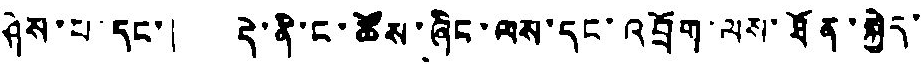ཤེས་པ་དང་། དེ་ནི་ང་ཚོས་ཞིང་ལས་དང་འབྲོག་ལས་ཐོན་སྐྱེད་
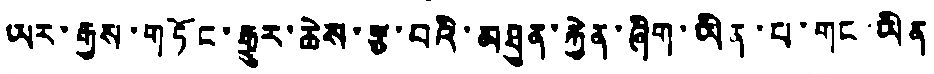ཡར་རྒྱས་གཏོང་རྒྱུར་ཆེས་རྩ་བའི་མཐུན་རྐྱེན་ཞིག་ཡིན་པ་གང་ཡིན
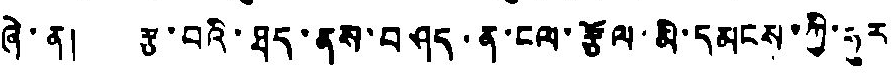ཞེ་ན། རྩ་བའི་ཐད་ནས་བཤད་ན་ངལ་རྩོལ་མི་དམངས་ཀྱི་ཧུར
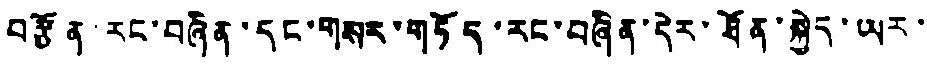བརྩོན་རང་བཞིན་དང་གསར་གཏོད་རང་བཞིན་དེར་ཐོན་སྐྱེད་ཡར་
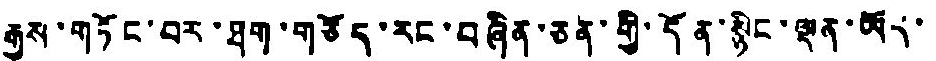རྒྱས་གཏོང་བར་ཐག་གཅོད་རང་བཞིན་ཅན་གྱི་དོན་སྙིང་ལྡན་ཡོད་
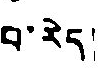པ་རེད།
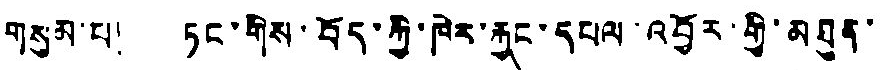གསུམ་པ། ཏང་གིས་བོད་ཀྱི་ཁེར་རྐྱང་དཔལ་འབྱོར་གྱི་མཐུན་
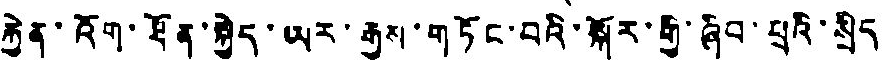རྐྱེན་འོག་ཐོན་སྐྱེད་ཡར་རྒྱས་གཏོང་བའི་སྐོར་གྱི་ཞིབ་པའི་སྲིད
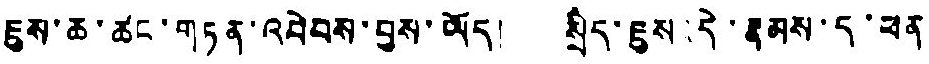ཇུས་ཆ་ཚང་གཏན་འབེབས་བྱས་ཡོད། སྲིད་ཇུས་དེ་རྣམས་ད་ཕན
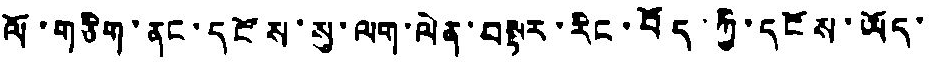ལོ་གཅིག་ནང་དངོས་སུ་ལག་ལེན་བསྟར་རིང་བོད་ཀྱི་དངོས་ཡོད་
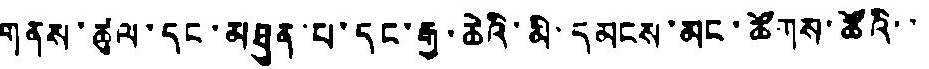གནས་ཚུལ་དང་མཐུན་པ་དང་རྒྱ་ཆེའི་མི་དམངས་མང་ཚོགས་ཚོའི་་
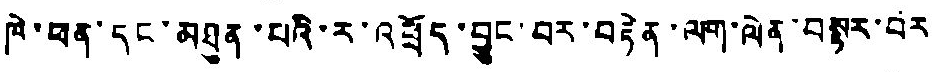ཁེ་ཕན་དང་མཐུན་པའི་ར་འཕྲོད་བྱུང་བར་བརྟེན་ལག་ལེན་བསྟར་བར
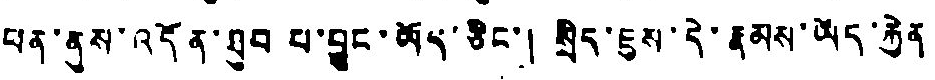ཕན་ནུས་འདོན་ཐུབ པ་བྱུང་ཡོད་ཅིང་། སྲིད་ཇུས་དེ་རྣམས་ཡོད་རྐྱེན
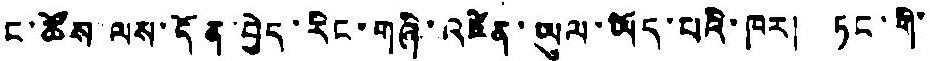ང་ཚོས ལས་དོན་བྱེད་རིང་གཞི་འཛིན་ཡུལ་ཡོད་པའི་ཁར། ཏང་གི་
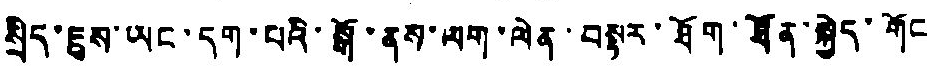སྲིད་ཇུས་ཡང་དག་པའི་སྒོ་ནས་ལག་ལེན་བསྟར་ཐོག་ཐོན་སྐྱེད་གོང
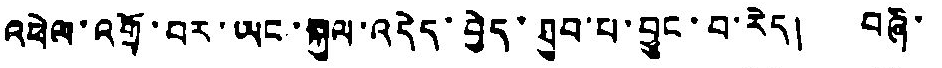འཕེལ་འགྲོ་བར་ཡང་སྐུལ་འདེད་བྱེད་ཐུབ་པ་བྱུང་བ་རེད། བཞི་
